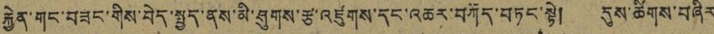རྐྱེན་གང་བཟང་གིས་བེད་སྤྱད་ནས་མི་ཤུགས་རྩ་འཛུགས་དང་འཆར་བཀོད་བཏང་སྟེ། དུས་ཚིགས་བཞིར
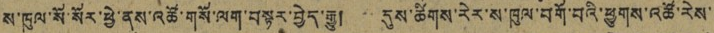ས་ཁུལ་སོ་སོར་ཕྱེ་ནས་འཚོ་གསོ་ལག་བསྟར་བྱེད་རྒྱུ། དུས་ཚིགས་རེར་ས་ཁུལ་བགོ་བའི་ཕྱུགས་འཚོ་རེས་
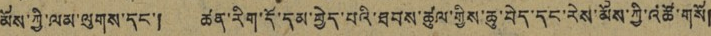མོས་ཀྱི་ལམ་ལུགས་དང་། ཚན་རིག་དོ་དམ་གྱེད་པའི་ཐབས་ཚུལ་གྱིས་ཆུ་བེད་དང་རེས་མོས་ཀྱི་འཚོ་གསོ།
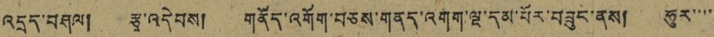འདྲད་བཤལ། རྩྭ་འདེབས། གནོད་འགོག་བཅས་གནད་འགག་ལྔ་དམ་པོར་བཟུང་ནས། ཧུར་་་་
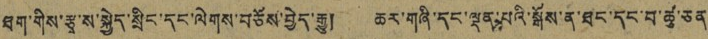ཐག་གིས་རྩྭ་ས་སྐྱེད་སྲིང་དང་ལེགས་བཅོས་བྱེད་རྒྱུ། ཆར་གཞི་དང་ལྡན་པའི་སྒོས་ན་ཐང་དང་བ་ཚུ་ཅན་
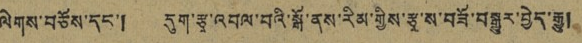ལེགས་བཅོས་དང་། དུག་རྩྭ་འབལ་བའི་སྒོ་ནས་རིམ་གྱིས་རྩྭ་ས་བཟོ་བསྒྱུར་བྱེད་རྒྱུ།
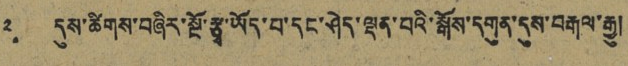༢. དུས་ཚིགས་བཞིར་སྔོ་རྩྭ་ཡོད་པ་དང་ཤེད་ལྡན་པའི་སྒོས་དགུན་དུས་བརྒལ་རྒྱུ།
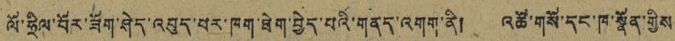ལོ་ཧྲིལ་བོར་ཟོག་ཤེད་འབུད་པར་ཁག་ཐེག་བྱེད་པའི་གནད་འགག་ནི། འཚོ་གསོ་དང་ཁ་སྣོན་གྱིས
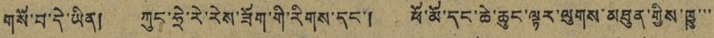གསོ་བ་དེ་ཡིན། ཀུང་ཧྲེ་རེ་རེས་ཟོག་གི་རིགས་དང་། ཕོ་མོ་དང་ཆེ་ཆུང་ལྟར་ལུགས་མཐུན་གྱིས་ཁྱུ་་་
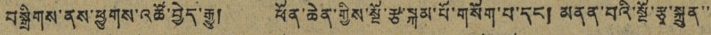བསྒྲིགས་ནས་ཕྱུགས་འཚོ་བྱེད་རྒྱུ། ཕོན་ཆེན་གྱིས་སྔོ་རྩ་སྐམ་པོ་གསོག་པ་དང་། མནན་པའི་སྔོ་རྩྭ་སྐྲུན་་་
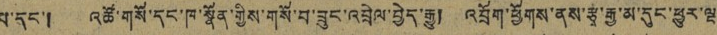པ་དང་། འཚོ་གསོ་དང་ཁ་སྣོན་གྱིས་གསོ་བ་ཟུང་འབྲེལ་བྱེད་རྒྱུ། འབྲོག་ཕྱོགས་ནས་རྩྭ་རྒྱ་མ་དུང་ཕྱུར་ལྔ་
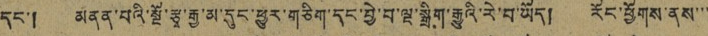དང་། མནན་པའི་སྔོ་རྩྭ་རྒྱ་མ་དུང་ཕྱུར་གཅིག་དང་བྱེ་བ་ལྔ་སྒྲིག་རྒྱུའི་རེ་བ་ཡོད། རོང་ཕྱོགས་ནས་་་
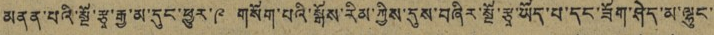མནན་པའི་སྔོ་རྩྭ་རྒྱ་མ་དུང་ཕྱུར་༩ གསོག་པའི་སྒོས་རིམ་ཀྱིས་དུས་བཞིར་སྔོ་རྩྭ་ཡོད་པ་དང་ཟོག་ཤེད་མ་ལྷུང་
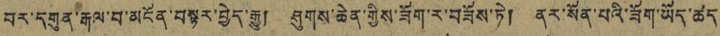བར་དགུན་རྒལ་བ་མངོན་བསྟར་བྱེད་རྒྱུ། ཤུགས་ཆེན་གྱིས་ཟོག་ར་བཟོས་ཏེ། ནར་སོན་པའི་ཟོག་ཡོད་ཚད
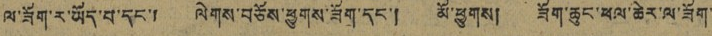ལ་ཟོག་ར་ཡོད་པ་དང་། ལེགས་བཅོས་ཕྱུགས་ཟོག་དང་། མོ་ཕྱུགས། ཟོག་ཆུང་ཕལ་ཆེར་ལ་ཟོག་
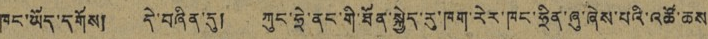ཁང་ཡོད་དགོས། དེ་བཞིན་དུ། ཀུང་ཧྲེ་ནང་གི་ཐོན་སྐྱེད་རུ་ཁག་རེར་ཁང་ཧྲིན་ཞུ་ཞེས་པའི་འཚོ་ཆས
